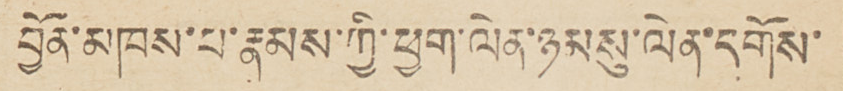བྱོན་མཁས་པ་རྣམས་ཀྱི་ཕྱག་ལེན་ཉམསུ་ལེན་དགོས་
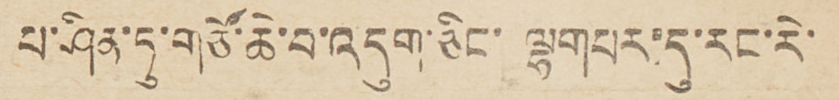པ་ཤིན་ཏུ་གཙོ་ཆེ་བ་འདུག་ཅིང་ ལྷག པར་དུ་རང་རེ་
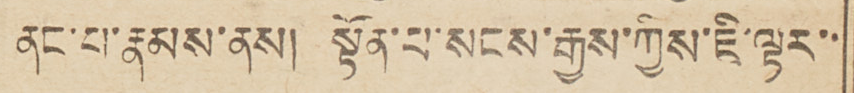ནང་པ་རྣམས་ནས། སྟོན་པ་སངས་རྒྱས་ཀྱིས་ཇི་ལྟར་་
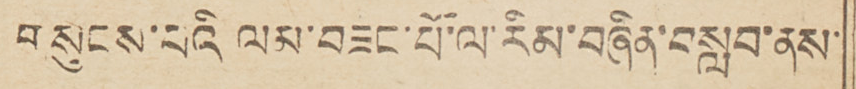བསུངས་པའི ལམ་བཟང་པོ་ལ་རིམ་བཞིན་བསླབ་ནས་
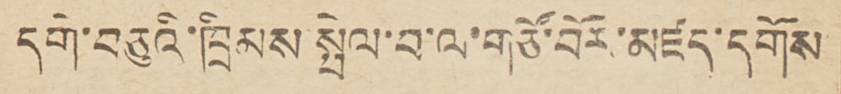དགེ་བཅུའི་ཁྲིམས་སྤེལ་བ་ལ་གཙོ་བོར་མཛད་དགོས
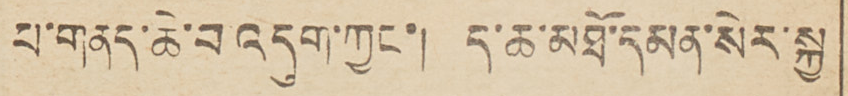པ་གནད་ཆེ་བ་འདུག་ཀྱང་། ད་ཆ་མཐོ་དམན་སེར་སྐྱ
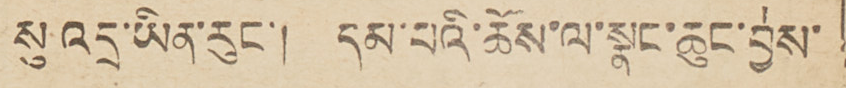སུ་འདྲ་ཡིན་རུང་། དམ་པའི་ཆོས་ལ་སྣང་ཆུང་བྱས་
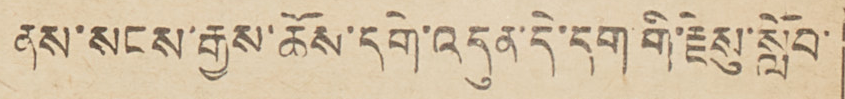ནས་སངས་རྒྱས་ཆོས་དགེ་འདུན་དེ་དག་གི་རྗེསུ་སློབ་
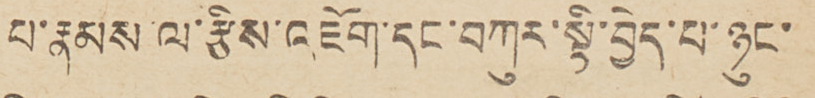པ་རྣམས་ལ་རྩིས་འཇོག་དང་བཀུར་སྟི་བྱེད་པ་ཉུང་
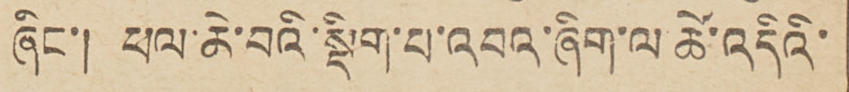ཞིང་། ཕལ་ཆེ་བའི་སྡིག་པ་འབའ་ཞིག་ལ ཚེ་འདིའི་
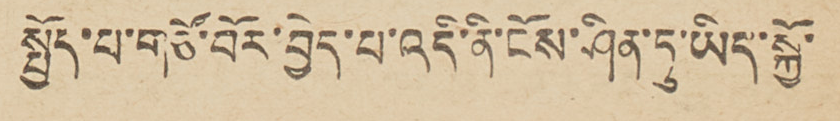སྤྱོད་པ་གཙོ་བོར་བྱེད་པ་འདི་ནི་ངོས་ཤིན་ཏུ་ཡིད་སྐྱོ་
